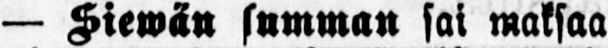— Siewän summan sai maksaa
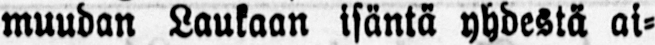muudan Laukaan isäntä yhdestä ai-
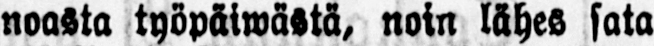noasta työpäiwästä, noin lähes sata
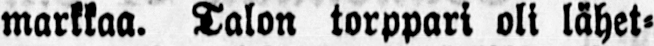markkaa. Talon torppari oli lähet-
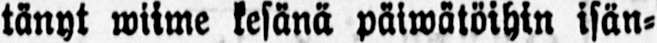tänyt wiime kesänä päiwätöihin isän-
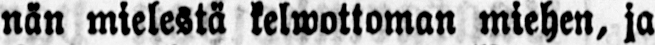nän mielestä kelwottoman miehen, ja
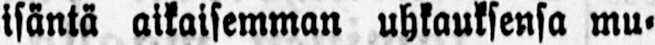isäntä aikaisemman uhkauksensa mu-
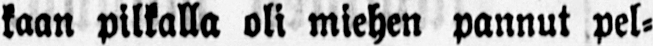kaan pilkalla oli miehen pannut pel-
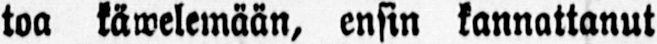toa käwelemään, ensin kannattanut
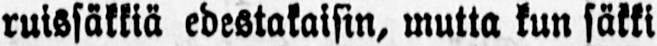ruissäkkiä edestakaisin, mutta kun säkki
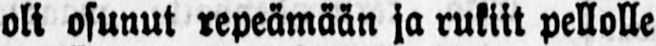oli osunut repeämään ja rukiit pellolle
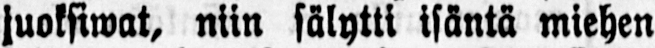juoksiwat, niin sälytti isäntä miehen
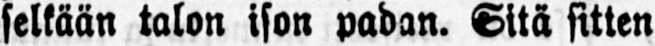selkään talon ison padan. Sitä sitten
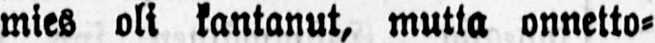mies oli kantanut, mutta onnetto-
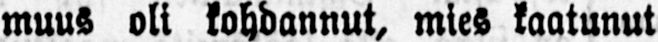muus oli kohdannut, mies kaatunut
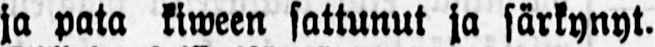ja pata kiween sattunut ja särkynyt.
